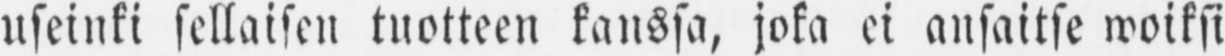useinki sellaisen tuotteen kanssa, joka ei ansaitse woiksi
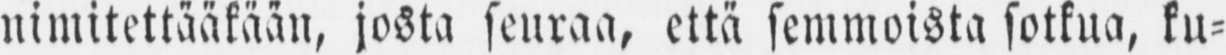nimitettääkään, josta seuraa, että semmoista sotkua, ku-
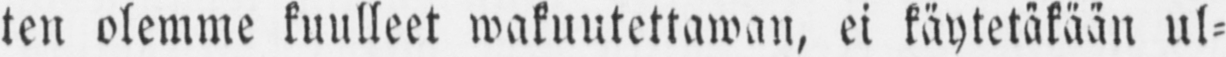ten olemme kuulleet wakuutettawan, ei käytetäkään ul-
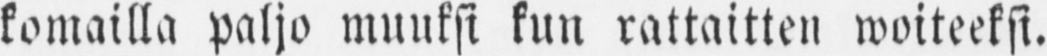komailla paljo muuksi kun rattaitten woiteeksi.
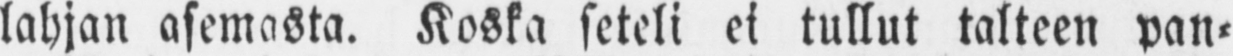lahjan asemasta. Koska seteli ei tullut talteen pan-
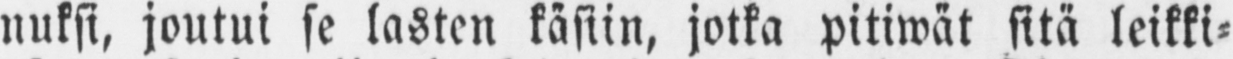nuksi, joutui se lasten käsiin, jotka pitiwät sitä leikki-
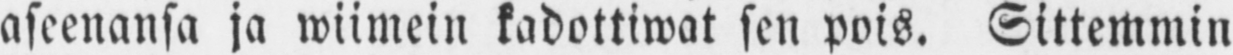aseenansa ja wiimein kadottiwat sen pois. Sittemmin
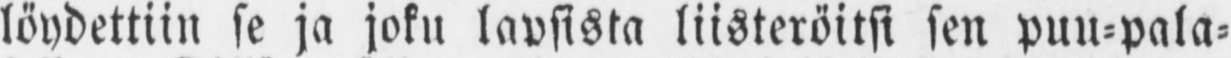löydettiin se ja joku lapsista liisteröitsi sen puu-pala-
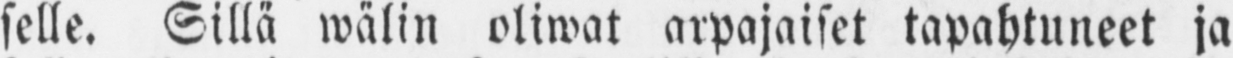selle. Sillä wälin oliwat arpajaiset tapahtuneet ja
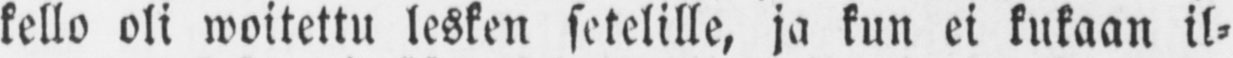kello oli woitettu lesken setelille, ja kun ei kukaan il-
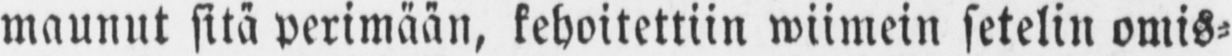maunut sitä perimään, kehoitettiin wiimein setelin omis-
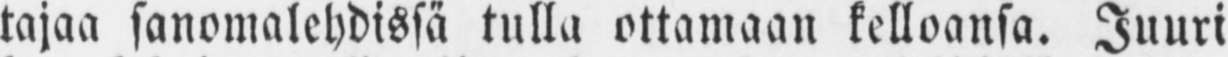tajaa sanomalehdissä tulla ottamaan kelloansa. Juuri
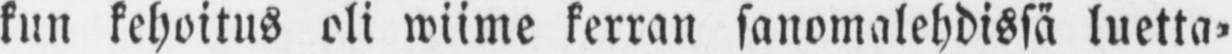kun kehoitus oli wiime kerran sanomalehdissä luetta-
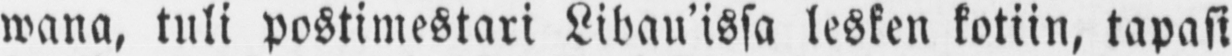wana, tuli postimestari Libau'issa lesken kotiin, tapasi
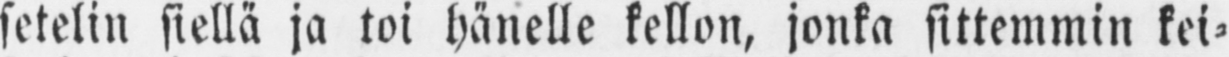setelin siellä ja toi hänelle kellon, jonka sittemmin kei-
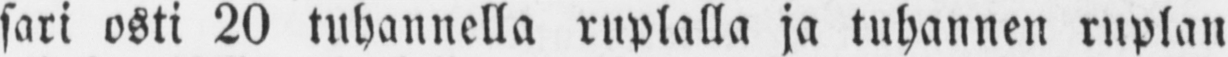sari osti 20 tuhannella ruplalla ja tuhannen ruplan
